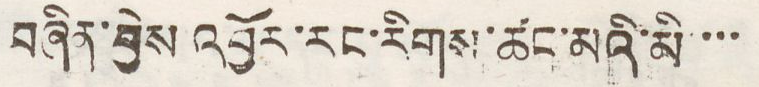བཞིན་བྱེས འབྱོར་རང་རིགས་ཚང་མའི་མི་་་་
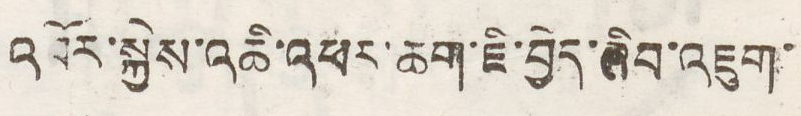འབོར་སྐྱེས་འཆི་འཕར་ཆག་ཇི་བྱེད་ཞིབ་འཇུག་
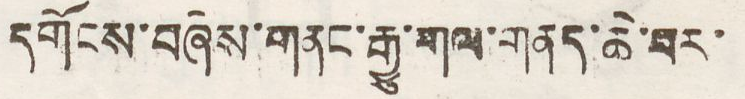དགོངས་བཞེས་གནང་རྒྱུ་གལ་གནད་ཆེ་བར་
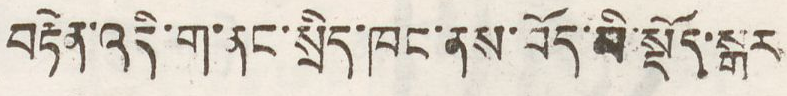བརྟེན་འདི་ག་ནང་སྲིད་ཁང་ནས་བོད་མི་སྡོད་སྒར
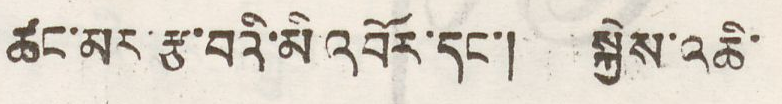ཚང་མར་རྩ་བའི་མི འབོར་དང་། སྐྱེས་འཆི་
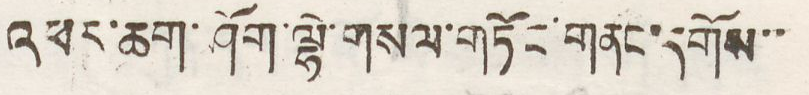འཕར་ཆག་ཤོག་ལྷེ་གསལ་གཏོང་གནང་དགོས་་
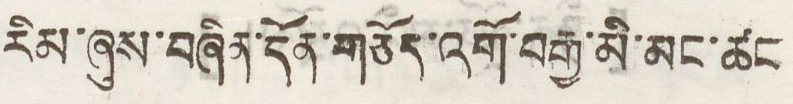རིམ་ཞུས་བཞིན་དོན་གཅོད་འགོ་བརྒྱ་མི་མང་ཚང
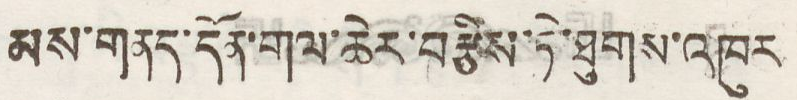མས་གནད་དོན་གལ་ཆེར་བརྩིས་ཏེ་ཐུགས་འཁུར
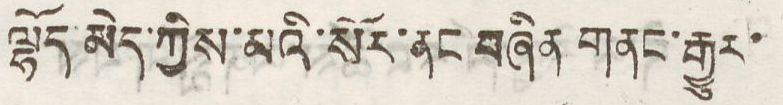ལྷོད་མེད་ཀྱིས་མའི་སོར་ནང་བཞིན གནང་རྒྱུར་
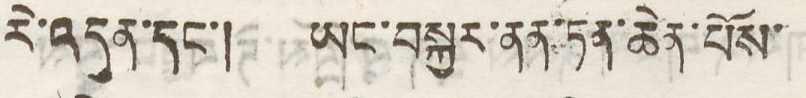རེ་འདུན་དང་། ཡང་བསྐྱར་ནན་ཏན་ཆེན་པོས་
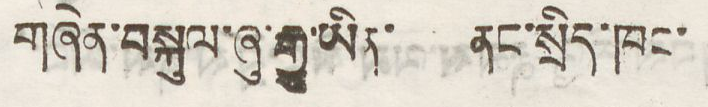གཞེན་བསྐུལ་ཞུ་རྒྱུ་ཡིན། ནང་སྲིད་ཁང་
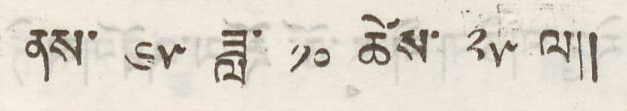ནས་ ༦༥ ཟླ་ ༡༠ ཚེས་ ༢༥ ལ།།
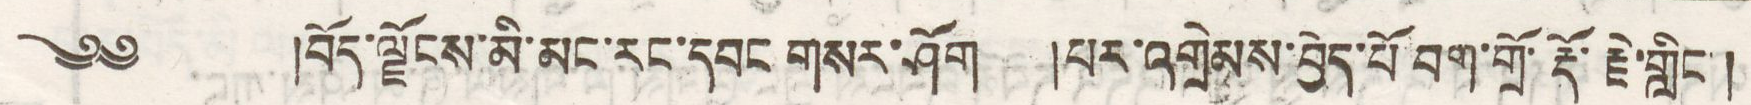༄༅ །བོད་ལྗོངས་མི་མང་རང་དབང གསར་ཤོག །པར་འགྲེམས་བྱེད་པོ བག་གྲོ་རྡོ་གླིང་།
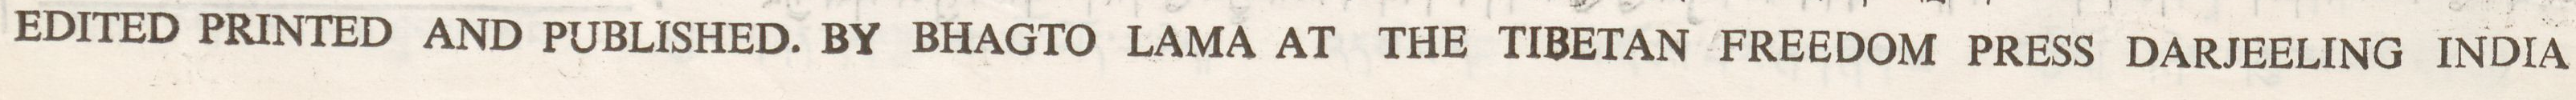EDITED PRINTED AND PUBLISHED BY BHAGTO LAMA AT THE TIBETAN FREEDOM PRESS DARJEELING INDIA
